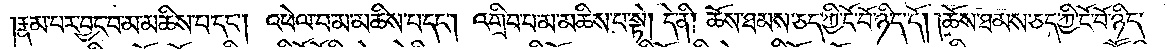རྣམ་པར་བྱང་བ་མ་མཆིས་པ་དང༌། འཕེལ་བ་མ་མཆིས་པ་དང༌། འགྲིབ་པ་མ་མཆིས་པ་སྟེ། དེ་ནི། ཆོས་ཐམས་ཅད་ཀྱི་ངོ་བོ་ཉིད་དོ། །ཆོས་ཐམས་ཅད་ཀྱི་ངོ་བོ་ཉིད་
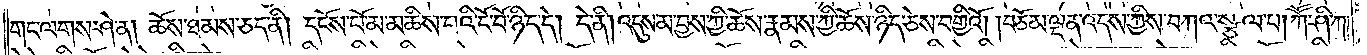གང་ལགས་ཤེ་ན། ཆོས་ཐམས་ཅད་ནི། དངོས་པོ་མ་མཆིས་པའི་ངོ་བོ་ཉིད་དེ། དེ་ནི། འདུས་མ་བྱས་ཆོས་རྣམས་ཀྱི་ཆོས་ཉིད་ཅེས་བགྱིའོ། །བཅོམ་ལྡན་འདས་ཀྱིས་བཀའ་སྩལ་པ། ཀཽ་ཤི་ཀ་
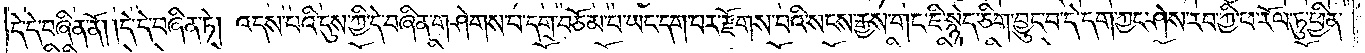དེ་དེ་བཞིན་ནོ། །དེ་དེ་བཞིན་ཏེ། འདས་པའི་དུས་ཀྱི་དེ་བཞིན་གཤེགས་པ་དགྲ་བཅོམ་པ་ཡང་དག་པར་རྫོགས་པའི་སངས་རྒྱས་གང་ཇི་སྙེད་ཅིག་བྱུང་བ་དེ་དག་ཀྱང་ཤེས་རབ་ཀྱི་ཕ་རོལ་ཏུ་ཕྱིན་
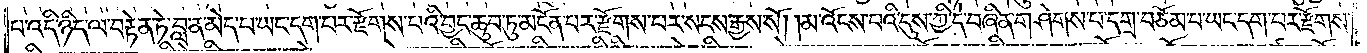པ་འདི་ཉིད་ལ་བརྟེན་ཏེ་བླ་ན་མེད་པ་ཡང་དག་པར་རྫོགས་པའི་བྱང་ཆུབ་ཏུ་མངོན་པར་རྫོགས་པར་སངས་རྒྱས་སོ། །མ་འོངས་པའི་དུས་ཀྱི་དེ་བཞིན་གཤེགས་པ་དགྲ་བཅོམ་པ་ཡང་དག་པར་རྫོགས་
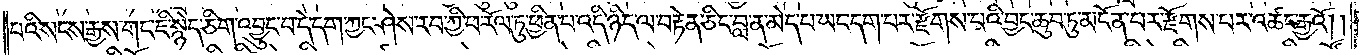པའི་སངས་རྒྱས་གང་ཇི་སྙེད་ཅིག་འབྱུང་བ་དེ་དག་ཀྱང་ཤེས་རབ་ཀྱི་ཕ་རོལ་ཏུ་ཕྱིན་པ་འདི་ཉིད་ལ་བརྟེན་ཅིང་བླ་ན་མེད་པ་ཡང་དག་པར་རྫོགས་པའི་བྱང་ཆུབ་ཏུ་མངོན་པར་རྫོགས་པར་འཚང་རྒྱའོ། །
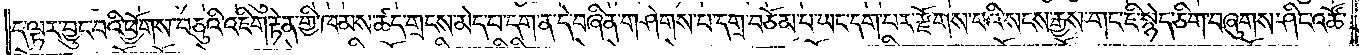ད་ལྟར་བྱུང་བའི་ཕྱོགས་བཅུའི་འཇིག་རྟེན་གྱི་ཁམས་ཚད་མེད་གྲངས་མེད་པ་དག་ན་དེ་བཞིན་གཤེགས་པ་དགྲ་བཅོམ་པ་ཡང་དག་པར་རྫོགས་པའི་སངས་རྒྱས་གང་ཇི་སྙེད་ཅིག་བཞུགས་ཤིང་འཚོ་
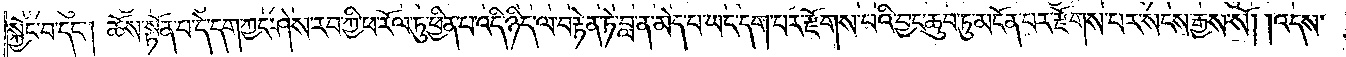སྐྱོང་བ་དང༌། ཆོས་སྟོན་པ་དེ་དག་ཀྱང་ཤེས་རབ་ཀྱི་ཕ་རོལ་ཏུ་ཕྱིན་པ་འདི་ཉིད་ལ་བརྟེན་ཏེ་བླ་ན་མེད་པ་ཡང་དག་པར་རྫོགས་པའི་བྱང་ཆུབ་ཏུ་མངོན་པར་རྫོགས་པར་སངས་རྒྱས་སོ། །འདས་
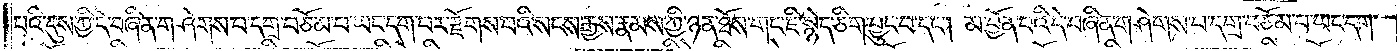པའི་དུས་ཀྱི་དེ་བཞིན་གཤེགས་པ་དགྲ་བཅོམ་པ་ཡང་དག་པར་རྫོགས་པའི་སངས་རྒྱས་རྣམས་ཀྱི་ཉན་ཐོས་གང་ཇི་སྙད་ཅིག་བྱུང་བ་དང༌། མ་བྱོན་པའི་དེ་བཞིན་གཤེགས་པ་དགྲ་བཅོམ་པ་ཡང་དག་
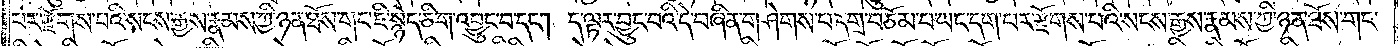པར་རྫོགས་པའི་སངས་རྒྱས་རྣམས་ཀྱི་ཉན་ཐོས་གང་ཇི་སྙེད་ཅིག་འབྱུང་བ་དང༌། ད་ལྟར་བྱུང་བའི་དེ་བཞིན་གཤེགས་པ་དགྲ་བཅོམ་པ་ཡང་དག་པར་རྫོགས་པའི་སངས་རྒྱས་རྣམས་ཀྱི་ཉན་ཐོས་གང་
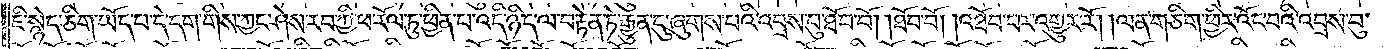ཇི་སྙེད་ཅིག་ཡོད་པ་དེ་དག་གིས་ཀྱང་ཤེས་རབ་ཀྱི་ཕ་རོལ་ཏུ་ཕྱིན་པ་འདི་ཉིད་ལ་བརྟེན་ཏེ་རྒྱུན་དུ་ཞུགས་པའི་འབྲས་བུ་ཐོབ་བོ། ཐོབ་བོ། འཐོབ་པར་འགྱུར་རོ། །ལན་གཅིག་ཕྱིར་འོང་བའི་འབྲས་བུ་
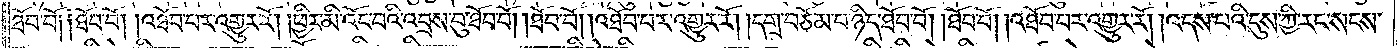ཐོབ་བོ། ཐོབ་བོ། འཐོབ་པར་འགྱུར་རོ། །ཕྱིར་མི་འོང་བའི་འབྲས་བུ་ཐོབ་བོ། ཐོབ་བོ། འཐོབ་པར་འགྱུར་རོ། །དགྲ་བཅོམ་པ་ཉིད་ཐོབ་པོ། ཐོབ་བོ། འཐོབ་པར་འགྱུར་རོ། །འདས་པའི་དུས་ཀྱི་རང་སངས་
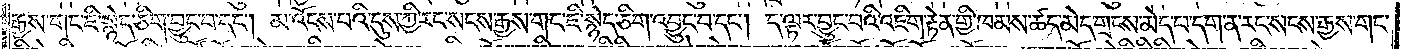རྒྱས་གང་ཇི་སྙེད་ཅིག་བྱུང་བ་དང༌། མ་འོངས་པའི་དུས་ཀྱི་རང་སངས་རྒྱས་གང་ཇི་སྙེད་ཅིག་འབྱུང་བ་དང༌། ད་ལྟར་བྱུང་བའི་འཇིག་རྟེན་གྱི་ཁམས་ཚད་མེད་གྲངས་མེད་པ་དག་ན་རང་སངས་རྒྱས་གང་
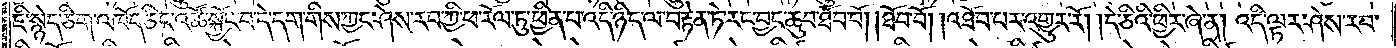ཇི་སྙེད་ཅིག་འཁོད་ཅིང་འཚོ་སྐྱོང་བ་དེ་དག་གིས་ཀྱང་ཤེས་རབ་ཀྱི་ཕ་རོལ་ཏུ་ཕྱིན་པ་འདི་ཉིད་ལ་བརྟེན་ཏེ་རང་བྱང་ཆུབ་ཐོབ་བོ། ཐོབ་བོ། འཐོབ་པར་འགྱུར་རོ། །དེ་ཅིའི་ཕྱིར་ཞེ་ན། འདི་ལྟར་ཤེས་རབ་
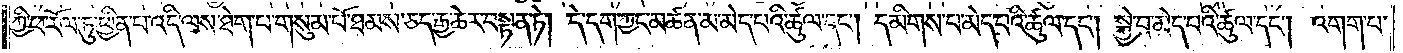ཀྱི་ཕ་རོལ་ཏུ་ཕྱིན་པ་འདི་ལས་ཐེག་པ་གསུམ་པོ་ཐམས་ཅད་རྒྱ་ཆེར་བསྟན་ཏེ། དེ་དག་ཀྱང་མཚན་མ་མེད་པའི་ཚུལ་དང༌། དམིགས་པ་མེད་པའི་ཚུལ་དང༌། སྐྱེ་བ་མེད་པའི་ཚུལ་དང༌། འགག་པ་
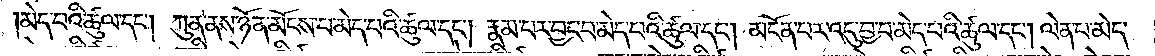མེད་པའི་ཚུལ་དང༌། ཀུན་ནས་ཉོན་མོངས་པ་མེད་པའི་ཚུལ་དང༌། རྣམ་པར་བྱང་བ་མེད་པའི་ཚུལ་དང༌། མངོན་པར་འདུ་བྱ་བ་མེད་པའི་ཚུལ་དང༌། ལེན་པ་མེད་
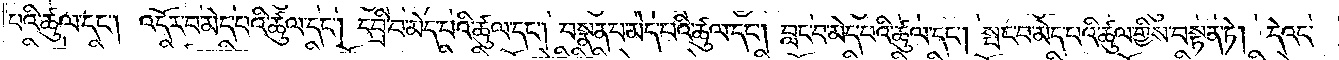པའི་ཚུལ་དང༌། འདོར་བ་མེད་པའི་ཚུལ་དང༌། དབྲི་བ་མེད་པའི་ཚུལ་དང༌། བསྣན་པ་མེད་པའི་ཚུལ་དང༌། བླང་བ་མེད་པའི་ཚུལ་དང༌། སྤང་བ་མེད་པའི་ཚུལ་གྱིས་བསྟན་ཏེ། དེའང་
